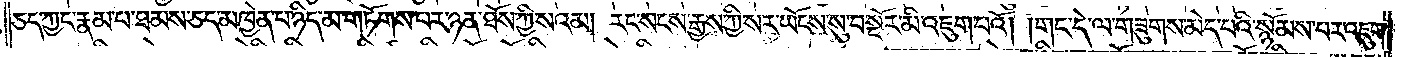ཅད་ཀྱང་རྣམ་པ་ཐམས་ཅད་མཁྱེན་པ་ཉིད་མ་གཏོགས་པར་ཉན་ཐོས་ཀྱི་སའམ། རང་སངས་རྒྱས་ཀྱི་སར་ཡོངས་སུ་བསྔོར་མི་འཇུག་པའོ། །གང་དེ་ལ་གཟུགས་མེད་པའི་སྙོམས་པར་འཇུག་
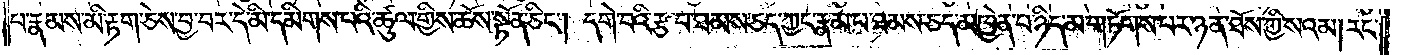པ་རྣམས་མི་རྟག་ཅེས་བྱ་བར་དེ་མི་དམིགས་པའི་ཚུལ་གྱིས་ཆོས་སྟོན་ཅིང༌། དགེ་བའི་རྩ་བ་ཐམས་ཅད་ཀྱང་རྣམ་པ་ཐམས་ཅད་མཁྱེན་པ་ཉིད་མ་གཏོགས་པར་ཉན་ཐོས་ཀྱི་སའམ། རང་
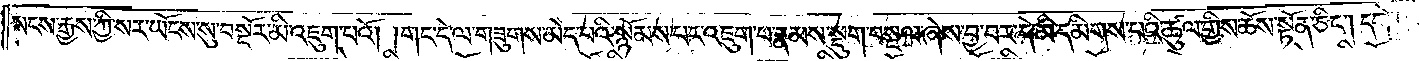སངས་རྒྱས་ཀྱི་སར་ཡོངས་སུ་བསྔོར་མི་འཇུག་པའོ། །གང་དེ་ལ་གཟུགས་མེད་པའི་སྙོམས་པར་འཇུག་པ་རྣམས་སྡུག་བསྔལ་ཞེས་བྱ་བར་དེ་མི་དམིགས་པའི་ཚུལ་གྱིས་ཆོས་སྟོན་ཅིང༌། དགེ་བའི་
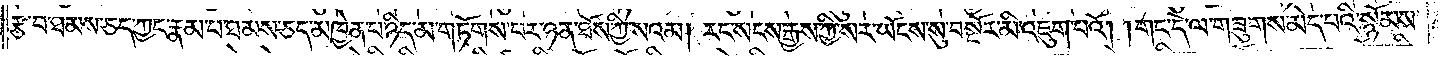རྩ་བ་ཐམས་ཅད་ཀྱང་རྣམ་པ་ཐམས་ཅད་མཁྱེན་པ་ཉིད་མ་གཏོགས་པར་ཉན་ཐོས་ཀྱི་སའམ། རང་སངས་རྒྱས་ཀྱི་སར་ཡོངས་སུ་བསྔོར་མི་འཇུག་པའོ། །གང་དེ་ལ་གཟུགས་མེད་པའི་སྙོམས་
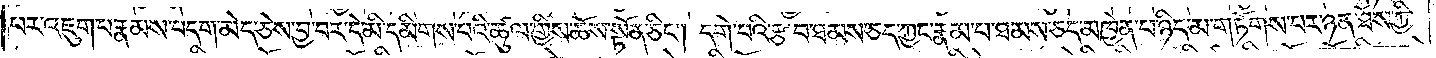པར་འཇུག་པ་རྣམས་བདག་མེད་ཅེས་བྱ་བར་དེ་མི་དམིགས་པའི་ཚུལ་གྱིས་ཆོས་སྟོན་ཅིང༌། དགེ་བའི་རྩ་བ་ཐམས་ཅད་ཀྱང་རྣམ་པ་ཐམས་ཅད་མཁྱེན་པ་ཉིད་མ་གཏོགས་པར་ཉན་ཐོས་ཀྱི་
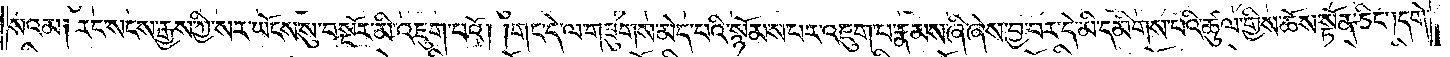སའམ༑ རང་སངས་རྒྱས་ཀྱི་སར་ཡོངས་སུ་བསྔོར་མི་འཇུག་པའོ། །གང་དེ་ལ་གཟུགས་མེད་པའི་སྙོམས་པར་འཇུག་པ་རྣམས་ཞི་ཞེས་བྱ་བར་དེ་མི་དམིགས་པའི་ཚུལ་གྱིས་ཆོས་སྟོན་ཅིང༌། དགེ་
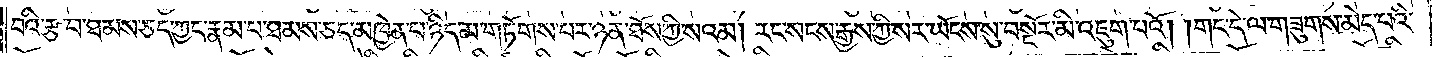བའི་རྩ་བ་ཐམས་ཅད་ཀྱང་རྣམ་པ་ཐམས་ཅད་མཁྱེན་པ་ཉིད་མ་གཏོགས་པར་ཉན་ཐོས་ཀྱི་སའམ། རང་སངས་རྒྱས་ཀྱི་སར་ཡོངས་སུ་བསྔོར་མི་འཇུག་པའོ། །གང་དེ་ལ་གཟུགས་མེད་པའི་
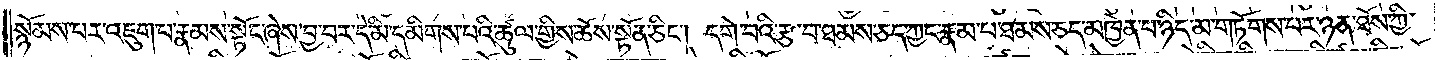སྙོམས་པར་འཇུག་པ་རྣམས་སྟོང་ཞེས་བྱ་བར་དེ་མི་དམིགས་པའི་ཚུལ་གྱིས་ཆོས་སྟོན་ཅིང༌། དགེ་བའི་རྩ་བ་ཐམས་ཅད་ཀྱང་རྣམ་པ་ཐམས་ཅད་མཁྱེན་པ་ཉིད་མ་གཏོགས་པར་ཉན་ཐོས་ཀྱི་
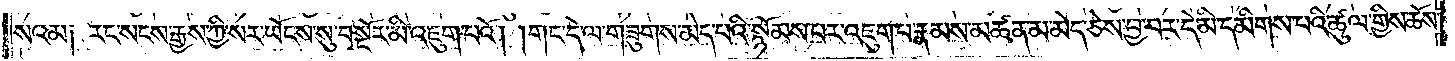སའམ༑ རང་སངས་རྒྱས་ཀྱི་སར་ཡོངས་སུ་བསྔོར་མི་འཇུག་པའོ། །གང་དེ་ལ་གཟུགས་མེད་པའི་སྙོམས་པར་འཇུག་པ་རྣམས་མཚན་མ་མེད་ཅེས་བྱ་བར་དེ་མི་དམིགས་པའི་ཚུལ་གྱིས་ཆོས་
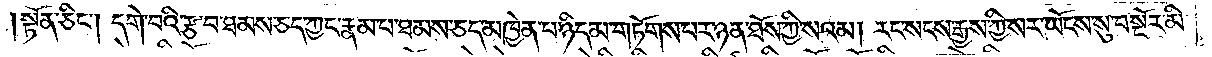སྟོན་ཅིང༌། དགེ་བའི་རྩ་བ་ཐམས་ཅད་ཀྱང་རྣམ་པ་ཐམས་ཅད་མཁྱེན་པ་ཉིད་མ་གཏོགས་པར་ཉན་ཐོས་ཀྱི་སའམ། རང་སངས་རྒྱས་ཀྱི་སར་ཡོངས་སུ་བསྔོར་མི་
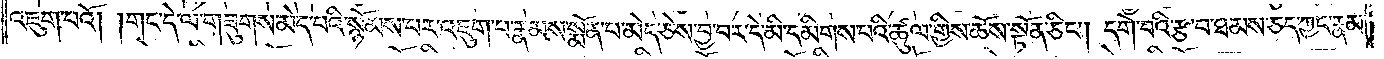འཇུག་པའོ། །གང་དེ་ལ་གཟུགས་མེད་པའི་སྙོམས་པར་འཇུག་པ་རྣམས་སྨོན་པ་མེད་ཅེས་བྱ་བར་དེ་མི་དམིགས་པའི་ཚུལ་གྱིས་ཆོས་སྟོན་ཅིང༌། དགེ་བའི་རྩ་བ་ཐམས་ཅད་ཀྱང་རྣམ་
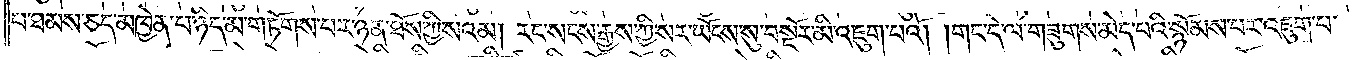པ་ཐམས་ཅད་མཁྱེན་པ་ཉིད་མ་གཏོགས་པར་ཉན་ཐོས་ཀྱི་སའམ། རང་སངས་རྒྱས་ཀྱི་སར་ཡོངས་སུ་བསྔོར་མི་འཇུག་པའོ། །གང་དེ་ལ་གཟུགས་མེད་པའི་སྙོམས་པར་འཇུག་པ་
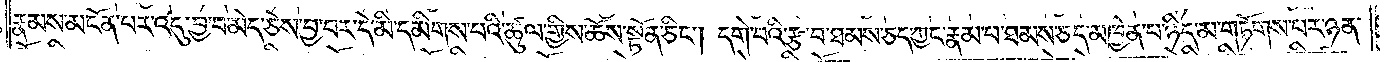རྣམས་མངོན་པར་འདུ་བྱ་བ་མེད་ཅེས་བྱ་བར་དེ་མི་དམིགས་པའི་ཚུལ་གྱིས་ཆོས་སྟོན་ཅིང༌། དགེ་བའི་རྩ་བ་ཐམས་ཅད་ཀྱང་རྣམ་པ་ཐམས་ཅད་མཁྱེན་པ་ཉིད་མ་གཏོགས་པར་ཉན་
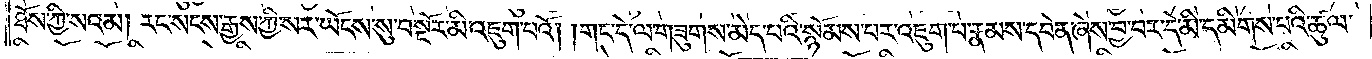ཐོས་ཀྱི་སའམ། རང་སངས་རྒྱས་ཀྱི་སར་ཡོངས་སུ་བསྔོར་མི་འཇུག་པའོ། །གང་དེ་ལ་གཟུགས་མེད་པའི་སྙོམས་པར་འཇུག་པ་རྣམས་དབེན་ཞེས་བྱ་བར་དེ་མི་དམིགས་པའི་ཚུལ་
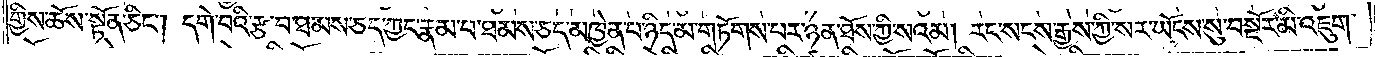གྱིས་ཆོས་སྟོན་ཅིང༌། དགེ་བའི་རྩ་བ་ཐམས་ཅད་ཀྱང་རྣམ་པ་ཐམས་ཅད་མཁྱེན་པ་ཉིད་མ་གཏོགས་པར་ཉན་ཐོས་ཀྱི་སའམ། རང་སངས་རྒྱས་ཀྱི་སར་ཡོངས་སུ་བསྔོར་མི་འཇུག་
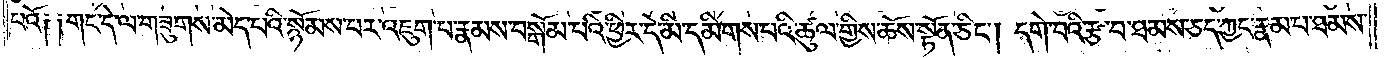པའོ༑ ༑གང་དེ་ལ་གཟུགས་མེད་པའི་སྙོམས་པར་འཇུག་པ་རྣམས་བསྒོམ་པའི་ཕྱིར་དེ་མི་དམིགས་པའི་ཚུལ་གྱིས་ཆོས་སྟོན་ཅིང༌། དགེ་བའི་རྩ་བ་ཐམས་ཅད་ཀྱང་རྣམ་པ་ཐམས་
